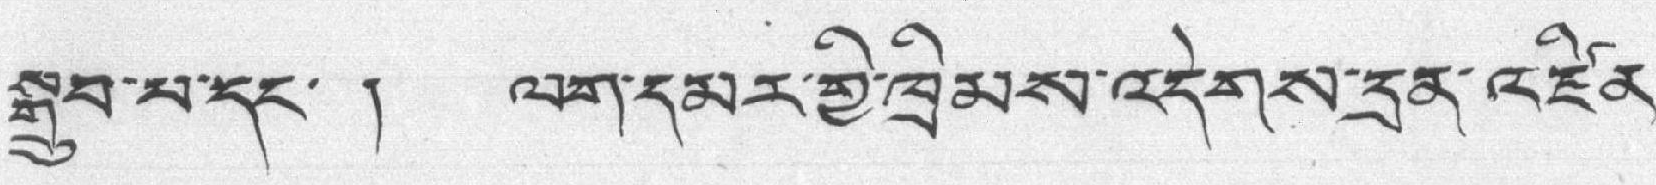སྒྲུབ་པ་དང་ ། ལག་དམར་གྱི་ཁྲིམས་འདེགས་དྲན་འཛིན་
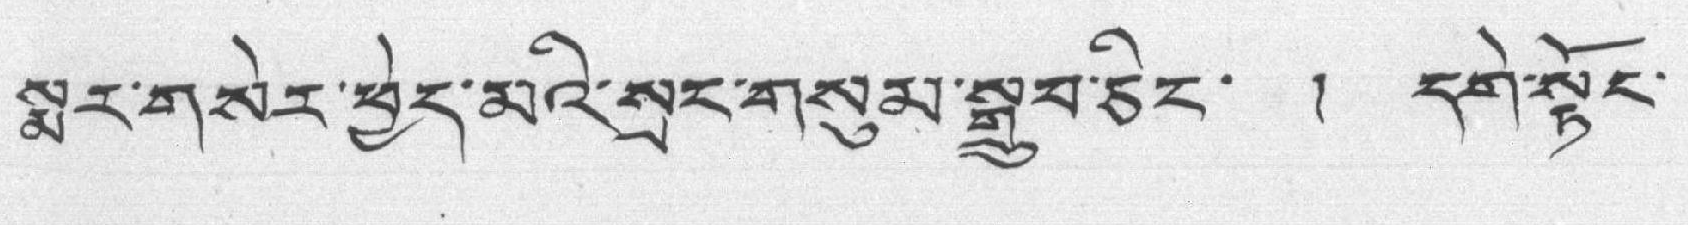སྨར་གསེར་ཕྱེད་མའི་སྲང་གསུམ་སྒྲུབ་ཅིང་ ། དགེ་སྟོང་
